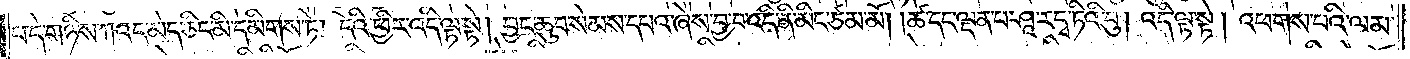པ་དེ་གཉིས་ཀའང་མེད་ཅིང་མི་དམིགས་ཏེ། དེའི་ཕྱིར་འདི་ལྟ་སྟེ། བྱང་ཆུབ་སེམས་དཔའ་ཞེས་བྱ་བ་འདི་ནི་མིང་ཙམ་མོ། །ཚེ་དང་ལྡན་པ་ཤཱ་ར་དྭ་ཏིའི་བུ། འདི་ལྟ་སྟེ། འཕགས་པའི་ལམ་
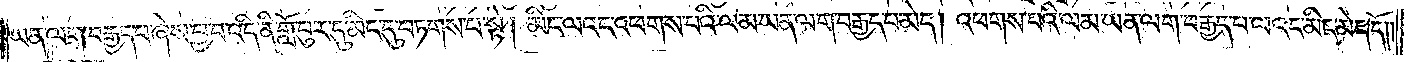ཡན་ལག་བརྒྱད་པ་ཞེས་བྱ་བ་འདི་ནི་གློ་བུར་དུ་མིང་དུ་བཏགས་པ་སྟེ། མིང་ལའང་འཕགས་པའི་ལམ་ཡན་ལག་བརྒྱད་པ་མེད། འཕགས་པའི་ལམ་ཡན་ལག་བརྒྱད་པ་ལའང་མིང་མེད་དོ། །
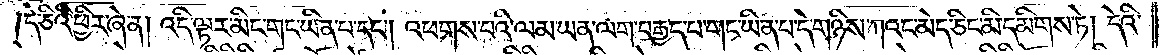དེ་ཅིའི་ཕྱིར་ཞེ་ན། འདི་ལྟར་མིང་གང་ཡིན་པ་དང༌། འཕགས་པའི་ལམ་ཡན་ལག་བརྒྱད་པ་གང་ཡིན་པ་དེ་གཉིས་ཀའང་མེད་ཅིང་མི་དམིགས་ཏེ། དེའི་
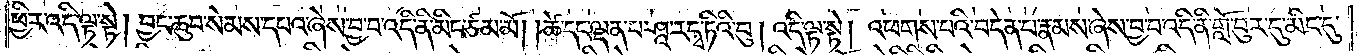ཕྱིར་འདི་ལྟ་སྟེ། བྱང་ཆུབ་སེམས་དཔའ་ཞེས་བྱ་བ་འདི་ནི་མིང་ཙམ་མོ། །ཚེ་དང་ལྡན་པ་ཤཱ་ར་དྭ་ཏིའི་བུ། འདི་ལྟ་སྟེ། འཕགས་པའི་བདེན་པ་རྣམས་ཞེས་བྱ་བ་འདི་ནི་གློ་བུར་དུ་མིང་དུ་
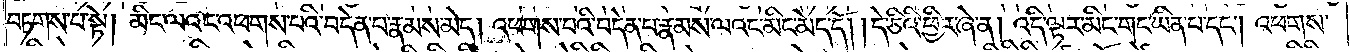བཏགས་པ་སྟེ། མིང་ལའང་འཕགས་པའི་བདེན་པ་རྣམས་མེད། འཕགས་པའི་བདེན་པ་རྣམས་ལའང་མིང་མེད་དོ། །དེ་ཅིའི་ཕྱིར་ཞེ་ན། འདི་ལྟར་མིང་གང་ཡིན་པ་དང༌། འཕགས་
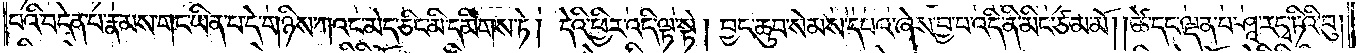པའི་བདེན་པ་རྣམས་གང་ཡིན་པ་དེ་གཉིས་ཀའང་མེད་ཅིང་མི་དམིགས་ཏེ། དེའི་ཕྱིར་འདི་ལྟ་སྟེ། བྱང་ཆུབ་སེམས་དཔའ་ཞེས་བྱ་བ་འདི་ནི་མིང་ཙམ་མོ། །ཚེ་དང་ལྡན་པ་ཤཱ་ར་དྭ་ཏིའི་བུ།
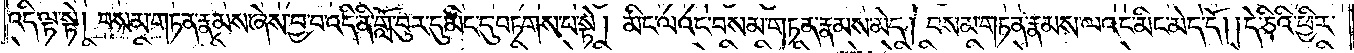འདི་ལྟ་སྟེ། བསམ་གཏན་རྣམས་ཞེས་བྱ་བ་འདི་ནི་གློ་བུར་དུ་མིང་དུ་བཏགས་པ་སྟེ། མིང་ལའང་བསམ་གཏན་རྣམས་མེད། བསམ་གཏན་རྣམས་ལའང་མིང་མེད་དོ། །དེ་ཅིའི་ཕྱིར་
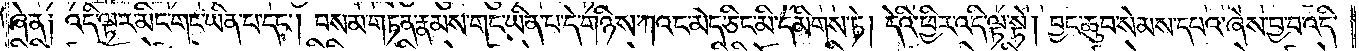ཞེ་ན། འདི་ལྟར་མིང་གང་ཡིན་པ་དང༌། བསམ་གཏན་རྣམས་གང་ཡིན་པ་དེ་གཉིས་ཀའང་མེད་ཅིང་མི་དམིགས་ཏེ། དེའི་ཕྱིར་འདི་ལྟ་སྟེ། བྱང་ཆུབ་སེམས་དཔའ་ཞེས་བྱ་བ་འདི་
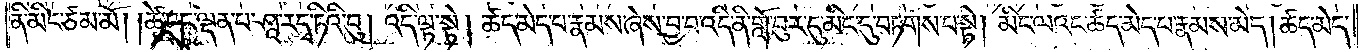ནི་མིང་ཙམ་མོ། །ཚེ་དང་ལྡན་པ་ཤཱ་ར་དྭ་ཏིའི་བུ། འདི་ལྟ་སྟེ། ཚད་མེད་པ་རྣམས་ཞེས་བྱ་བ་འདི་ནི་གློ་བུར་དུ་མིང་དུ་བཏགས་པ་སྟེ། མིང་ལའང་ཚད་མེད་པ་རྣམས་མེད། ཚད་མེད་
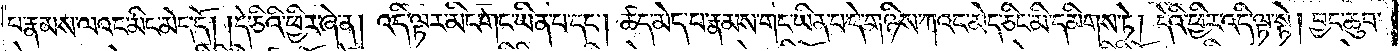པ་རྣམས་ལའང་མིང་མེད་དོ། །དེ་ཅིའི་ཕྱིར་ཞེ་ན། འདི་ལྟར་མིང་གང་ཡིན་པ་དང༌། ཆད་མེད་པ་རྣམས་གང་ཡིན་པ་དེ་གཉིས་ཀའང་མེད་ཅིང་མི་དམིགས་ཏེ། དེའི་ཕྱིར་འདི་ལྟ་སྟེ། བྱང་ཆུབ་
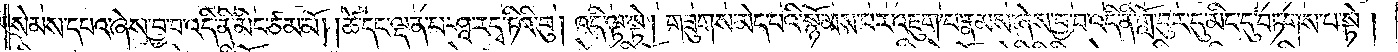སེམས་དཔའ་ཞེས་བྱ་བ་འདི་ནི་མིང་ཙམ་མོ། །ཚེ་དང་ལྡན་པ་ཤཱ་ར་དྭ་ཏིའི་བུ། འདི་ལྟ་སྟེ། གཟུགས་མེད་པའི་སྙོམས་པར་འཇུག་པ་རྣམས་ཞེས་བྱ་བ་འདི་ནི་གློ་བུར་དུ་མིང་དུ་བཏགས་པ་སྟེ།
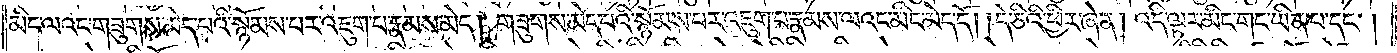མིང་ལའང་གཟུགས་མེད་པའི་སྙོམས་པར་འཇུག་པ་རྣམས་མེད། གཟུགས་མེད་པའི་སྙོམས་པར་འཇུག་པ་རྣམས་ལའང་མིང་མེད་དོ། །དེ་ཅིའི་ཕྱིར་ཞེ་ན། འདི་ལྟར་མིང་གང་ཡིན་པ་དང༌།
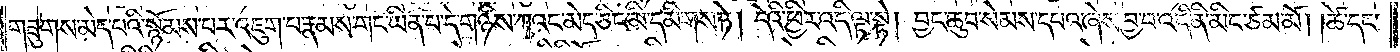གཟུགས་མེད་པའི་སྙོམས་པར་འཇུག་པ་རྣམས་གང་ཡིན་པ་དེ་གཉིས་ཀའང་མེད་ཅིང་མི་དམིགས་ཏེ། དེའི་ཕྱིར་འདི་ལྟ་སྟེ། བྱང་ཆུབ་སེམས་དཔའ་ཞེས་བྱ་བ་འདི་ནི་མིང་ཙམ་མོ། །ཚེ་དང་
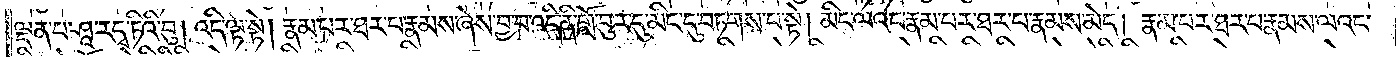ལྡན་པ་ཤཱ་ར་དྭ་ཏིའི་བུ། འདི་ལྟ་སྟེ། རྣམ་པར་ཐར་པ་རྣམས་ཞེས་བྱ་བ་འདི་ནི་གློ་བུར་དུ་མིང་དུ་བཏགས་པ་སྟེ། མིང་ལའང་རྣམ་པར་ཐར་པ་རྣམས་མེད། རྣམ་པར་ཐར་པ་རྣམས་ལའང་
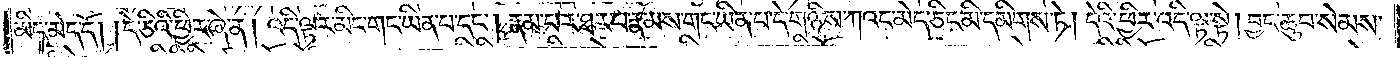མིང་མེད་དོ། །དེ་ཅིའི་ཕྱིར་ཞེ་ན། འདི་ལྟར་མིང་གང་ཡིན་པ་དང༌། རྣམ་པར་ཐར་པ་རྣམས་གང་ཡིན་པ་དེ་གཉིས་ཀའང་མེད་ཅིང་མི་དམིགས་ཏེ། དེའི་ཕྱིར་འདི་ལྟ་སྟེ། བྱང་ཆུབ་སེམས་
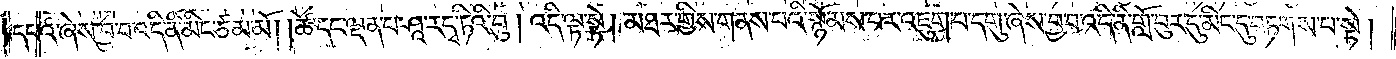དཔའ་ཞེས་བྱ་བ་འདི་ནི་མིང་ཙམ་མོ། །ཚེ་དང་ལྡན་པ་ཤཱ་ར་དྭ་ཏིའི་བུ། འདི་ལྟ་སྟེ། མཐར་གྱིས་གནས་པའི་སྙོམས་པར་འཇུག་པ་དགུ་ཞེས་བྱ་བ་འདི་ནི་གློ་བུར་དུ་མིང་དུ་བཏགས་པ་སྟེ།
